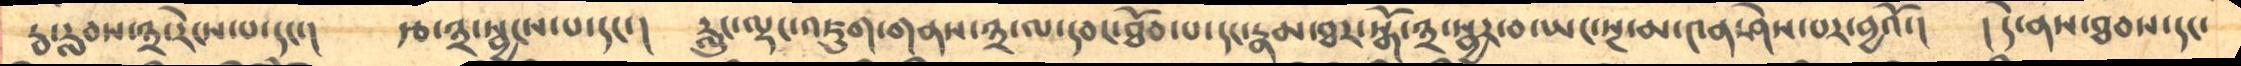རྦ་རླབས་༣་རེངས་པ་དང་།        རྩ་༣་སྦྱངས་པ་དང་།       རླུང་ལྡང་འཇུག་གནས་༣་ལ་དབང་ཐོབ་པ་དང་རྣམ་ཐར་སྒོ་༣་སྦྱར་བ་ཡང་སྔ་མ་༤ན་ཤེས་པར་བྱའོ་།    ། དེ་ནས་ཐབས་དང་
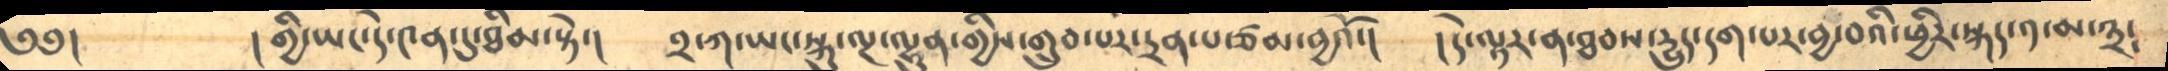༄༅།          ། གྱི་ཡང་དེ་༤ན་དུ་ཐིམ་སྟེ་།    ༢་ཀ་ཡང་སྐུ་ལྔ་ལྷུན་གྱིས་གྲུབ་པར་དྲན་པ་ཙམ་བྱའོ་།      །དེ་ལྟར་ན་ཐབས་དྱུད་དག་པར་བྱ་བའི་ཕྱིར་སྐད་༡་མ་༣་
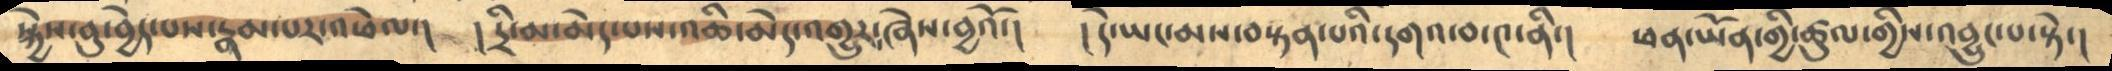སྐྱེས་བུ་བྱེད་པས་རྣམ་པར་འཕེལ་།      ། དྲི་མ་མེད་པས་འཆི་མེད་འགྱུར༴ཞེས་བྱའོ་།     ། དེ་ཡང་མས་བསྟན་པའི་དགའ་བ་༤་ནི་།     ཕན་ཡོན་གྱི་ཚུལ་གྱིས་འབྱུང་པ་སྟེ་།
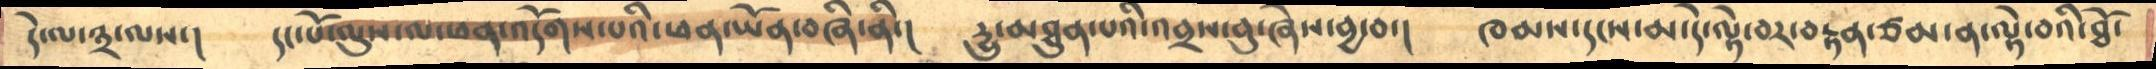དེ་ལ་༣་ལས་།     དང་པོ་ལུས་ལ་ཕན་འདོགས་པའི་ཕན་ཡོན་བཞི་ནི་།    དྱུ་མཐུན་པའི་འབྲས་བུ་ཞེས་བྱ་བ་།    ཁམས་དངས་མ་དེ་ལྟེ་བར་བརྟན་ཙམ་ན་ལྟེ་བའི་ཐོ་
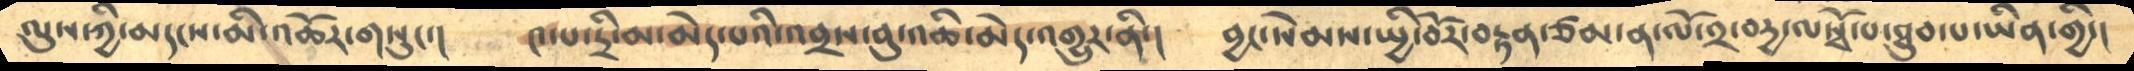ལུས་ཀྱི་མདངས་མི་འཆོར་གསུང་།       ༤་པ་དྲི་མ་མེད་པའི་འབྲས་བུ་འཆི་མེད་འགྱུར་ནི་།    བྱང་སེམས་སྤྱི་བོར་བརྟན་ཙམ་ན་ལོ་༢་བདྱ་ལསྭོ་པ་ཐུབ་པ་ཡིན་གྱི་།
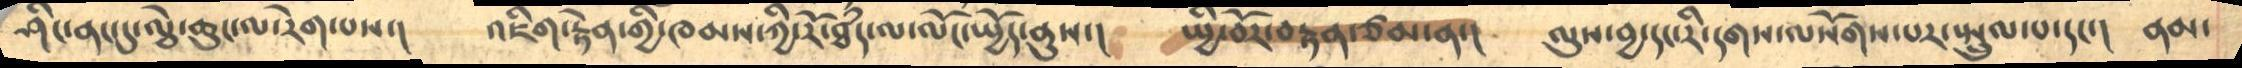ཤིང་ནང་དུ་ལྕེ་ཆུང་ལ་རེག་པས་།      འཇིག་རྟེན་གྱི་ཁམས་ཀྱི་རོ་ཐཾད་ལ་ལོང་སྤྱོད་ནུས་།      སྤྱི་བོར་བརྟན་ཙམ་ན་།     ལུས་བྱ་དང་རི་དགས་ལསོགས་པར་སྤྲུལ་པ་དང་།   ནམ་
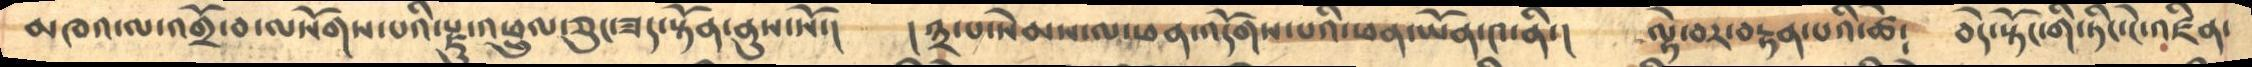མཁའ་ལ་འགྲོ་བ་ལསོགས་པའི་རྫུ་འཕྲུལ་ཅུང་ཟད་སྟོན་ནུས་སོ་།     །༣་པ་སེམས་ལ་ཕན་འདོགས་པའི་ཕན་ཡོན་༤་ནི་།   ལྟེ་བར་བརྟན་པའི་ཚེ༴    བདེ་སྟོང་གི་ཏིང་ངེ་འཛིན་
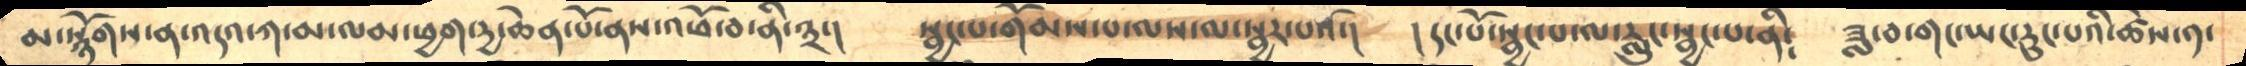མ་སྙོགས་ན་འདའ་ཀ་མ་ལམ་ཕྱག་དྱ་ཆེན་པོ་ནས་འཕོ་བ་ནི་༣་།   སྦྱང་པ་གོམས་པ་ལས་མ་སྦྱར་པའོ་།     ། དང་པོ་སྦྱང་པ་ལ་རླུང་སྦྱང་པ་ནི༴    ཟླ་བ་གང་ཡང་རུང་པའི་ཚེས་༡་
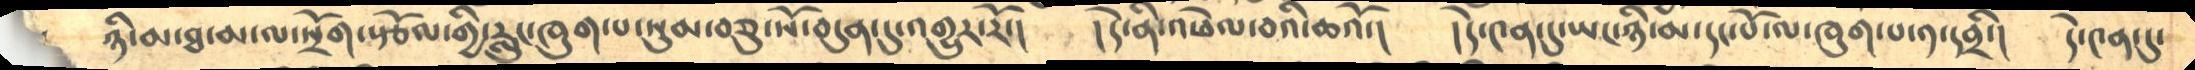ཉི་མ་ཐ་མ་ལ་སྲོག་སྩོལ་གྱི་རླུང་ཁུག་པ་སུམ་བཅུ་སོ་བདུན་དུ་འགྱུར་རོ་།      །དེ་ནི་འཕེལ་བའི་ཆའོ་།    །དེ་༤ན་དུ་ཡང་ཉི་མ་དང་པོ་ལ་ཁུག་པ་༡་དབྲི་།   དེ་༤ན་དུ་
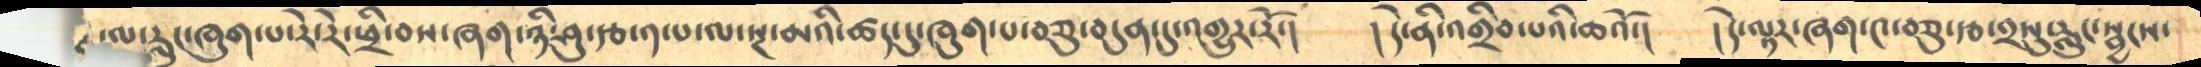ལ་རླུང་ཁུག་པ་རེ་རེ་ཕྲི་བས་ཞག་ཉི་ཤུ་རྩ་༡་པ་ལ་སྔ་མའི་ཚད་དུ་ཁུག་པ་བཅུ་བདུན་དུ་འགྱུར་རོ་།    །དེ་ནི་འགྲིབ་པའི་ཆའོ་།   །དེ་ལྟར་ཞག་༤་བཅུ་རྩ་༢སུ་རླུང་སྦྱངས་
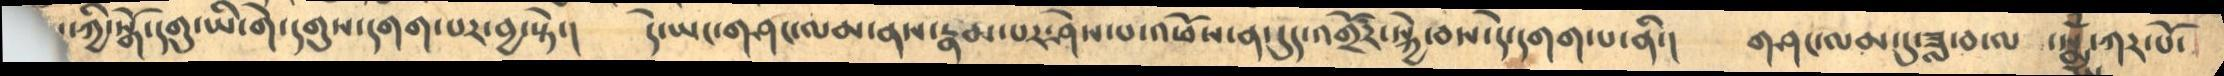ཀྱི་སྒོ་དགུ་ཡི་གེ་དགུས་དགག་པར་བྱ་སྟེ་།  དེ་ཡང་གཤང་ལམ་ནས་རྣམ་པར་ཤེས་པ་འཕོས་ན་དུད་འགྲོར་སྐྱེ་བས་དེ་དགག་པ་ནི་།  གཤང་ལམ་དུ་ཟླ་བ་ལ  ཧཱུཾ་ཀར་པོ་
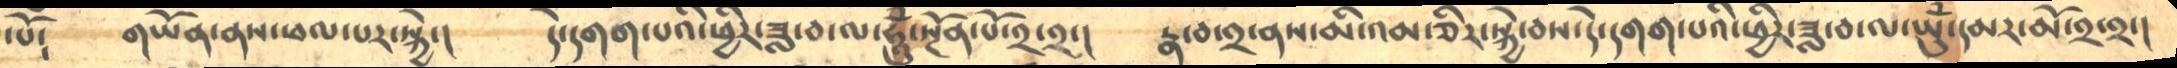་པོ༴     གཡོན་ནས་ཕལ་པར་སྐྱེ་།      དེ་དགག་པའི་ཕྱིར་ཟླ་བ་ལ་ཧཱུཾ་སྔོན་པོ་༢་༢་།    རྣ་བ་༢་ནས་མི་འམ་ཅིར་སྐྱེ་བས་དེ་དགག་པའི་ཕྱིར་ཟླ་བ་ལ་ཡུཾ་དམར་མོ་༢་༢་།
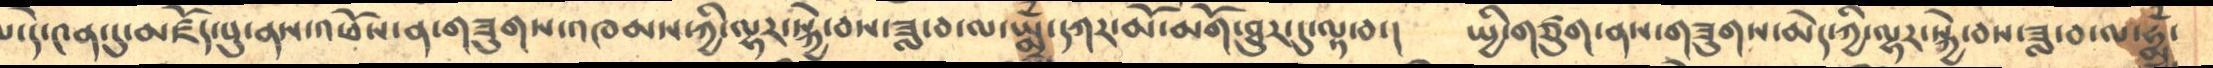པ་དེ་༤ན་དུ་མཛོད་པུ་ནས་འཕོས་ན་གཟུགས་འཁམས་ཀྱི་ལྷར་སྐྱེ་བས་ཟླ་བ་ལ་ཡྨྱཾ་དཀར་མོ་མགོ་ཐུར་དུ་ལྟ་བ་།     སྤྱི་གཙུག་ནས་གཟུགས་མེད་ཀྱི་ལྷར་སྐྱེ་བས་ཟླ་བ་ལ་ཧྨྱཾ་
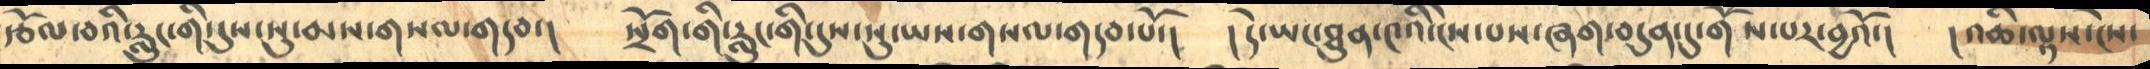རྩོལ་བའི་རྲུང་གི་དུས་སུ་མས་གསལ་གདབ་།   སྲོག་གི་རླུང་གི་དུས་སུ་ཡས་གསལ་གདབ་པོ་།   །དེ་ཡང་ཐུན་༤འི་ངེས་པས་ཞག་བདུན་དུ་གོས་པར་བྱའོ་།  །འཆི་ལྟས་ངེས་
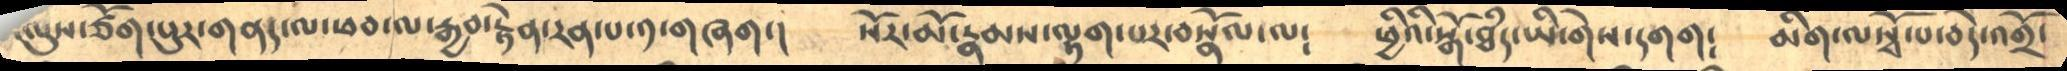་ལུས་ཙོག་པུར་གནད་ལ་ཕབ་ལ་རྒྱབ་རྟེན་རན་པ་༡་གཞག་།      སོར་མོ་རྣམས་ལྟག་པར་བསྣོལ་ལ༴     ཕྱིའི་སྒོ་ཐཾད་ཡི་གེས་དགག༴      མིག་ལསྭོ་པ་བདེ་འགྲོ་
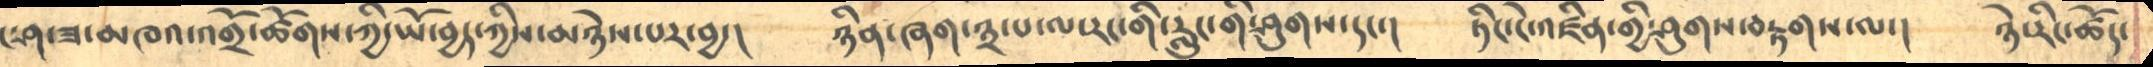ཤ་ཟ་མཁའ་འགྲོ་ཚོགས་ཀྱི་ཡོ་བྱད་ཀྱིས་མཉེས་པར་བྱ་།      ཉིན་ཞག་༣་པ་ལ་རང་གི་རླུང་གི་ཤུགས་དང་།      ཏིང་ངེ་འཛིན་གྱི་ཤུགས་བརྟགས་ལ་།    ཉེ་རིང་ཚོད་
